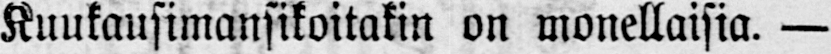Kuukausimansikoitakin on monellaisia. —
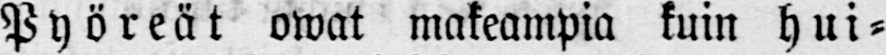Pyöreät owat makeampia kuin hui-
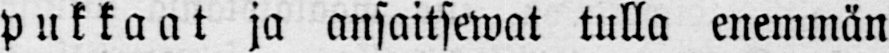pukkaat ja ansaitsewat tulla enemmän
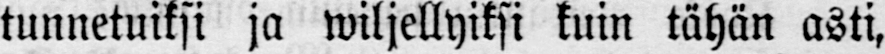tunnetuiksi ja wiljellyiksi kuin tähän asti,
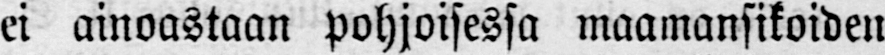ei ainoastaan pohjoisessa maamansikoiden
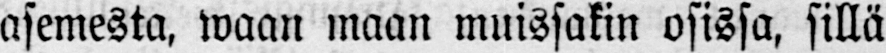asemesta, waan maan muissakin osissa, sillä
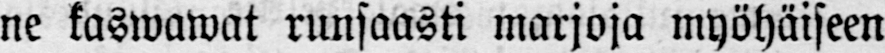ne kaswawat runsaasti marjoja myöhäiseen
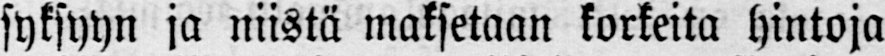syksyyn ja niistä maksetaan korkeita hintoja
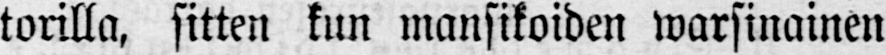torilla, sitten kun mansikoiden warsinainen
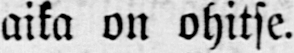aika on ohitse.
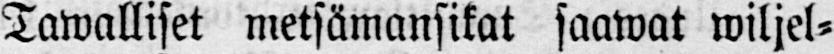Tawalliset metsämansikat saawat wiljel-
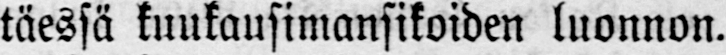täessä kuukausimansikoiden luonnon.
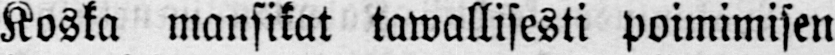Koska mansikat tawallisesti poimimisen
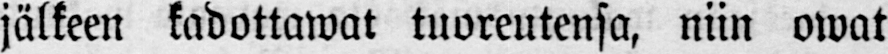jälkeen kadottawat tuoreutensa, niin owat
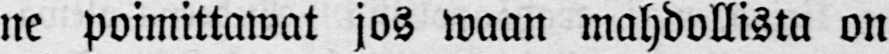ne poimittawat jos waan mahdollista on
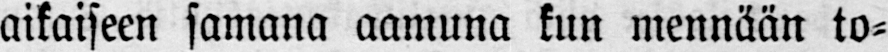aikaiseen samana aamuna kun mennään to-
